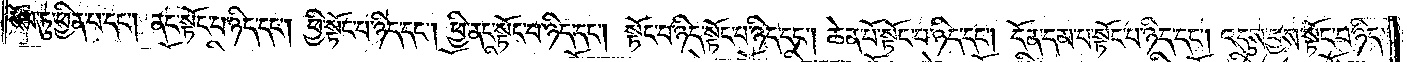རོལ་ཏུ་ཕྱིན་པ་དང༌། ནང་སྟོང་པ་ཉིད་དང༌། ཕྱི་སྟོང་པ་ཉིད་དང༌། ཕྱི་ནང་སྟོང་པ་ཉིད་དང༌། སྟོང་པ་ཉིད་སྟོང་པ་ཉིད་དང༌། ཆེན་པོ་སྟོང་པ་ཉིད་དང༌། དོན་དམ་པ་སྟོང་པ་ཉིད་དང༌། འདུས་བྱས་སྟོང་པ་ཉིད་
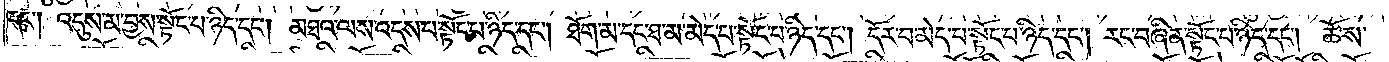དང༌། འདུས་མ་བྱས་སྟོང་པ་ཉིད་དང༌། མཐའ་ལས་འདས་པ་སྟོང་པ་ཉིད་དང༌། ཐོག་མ་དང་ཐ་མ་མེད་པ་སྟོང་པ་ཉིད་དང༌། དོར་བ་མེད་པ་སྟོང་པ་ཉིད་དང༌། རང་བཞིན་སྟོང་པ་ཉིད་དང༌། ཆོས་
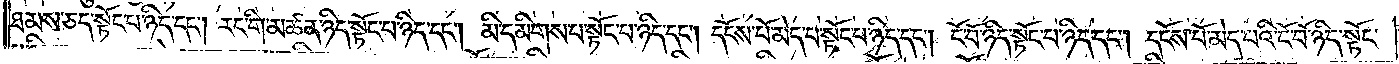ཐམས་ཅད་སྟོང་པ་ཉིད་དང༌། རང་གི་མཚན་ཉིད་སྟོང་པ་ཉིད་དང༌། མི་དམིགས་པ་སྟོང་པ་ཉིད་དང༌། དངོས་པོ་མེད་པ་སྟོང་པ་ཉིད་དང༌། ངོ་བོ་ཉིད་སྟོང་པ་ཉིད་དང༌། དངོས་པོ་མེད་པའི་ངོ་བོ་ཉིད་སྟོང་
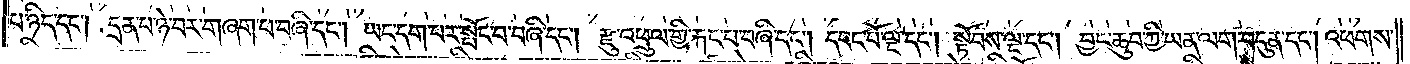པ་ཉིད་དང༌། དྲན་པ་ཉེ་བར་གཞག་པ་བཞི་དང༌། ཡང་དག་པར་སྤོང་བ་བཞི་དང༌། རྫུ་འཕྲུལ་གྱི་རྐང་པ་བཞི་དང༌། དབང་པོ་ལྔ་དང༌། སྟོབས་ལྔ་དང༌། བྱང་ཆུབ་ཀྱི་ཡན་ལག་བདུན་དང༌། འཕགས་
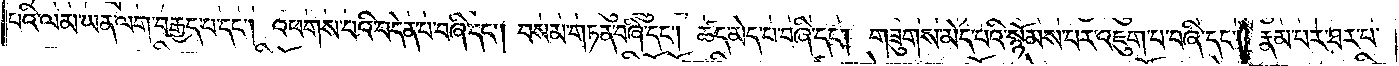པའི་ལམ་ཡན་ལག་བརྒྱད་པ་དང༌། འཕགས་པའི་བདེན་པ་བཞི་དང༌། བསམ་གཏན་བཞི་དང༌། ཚད་མེད་པ་བཞི་དང༌། གཟུགས་མེད་པའི་སྙོམས་པར་འཇུག་པ་བཞི་དང༌། རྣམ་པར་ཐར་པ་
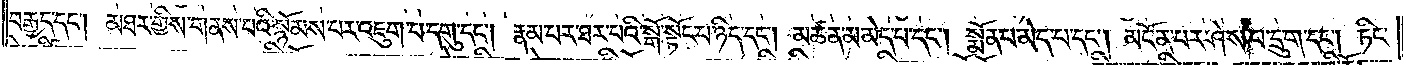བརྒྱད་དང༌། མཐར་གྱིས་གནས་པའི་སྙོམས་པར་འཇུག་པ་དགུ་དང༌། རྣམ་པར་ཐར་པའི་སྒོ་སྟོང་པ་ཉིད་དང༌། མཚན་མ་མེད་པ་དང༌། སྨོན་པ་མེད་པ་དང༌། མངོན་པར་ཤེས་པ་དྲུག་དང༌། ཏིང་
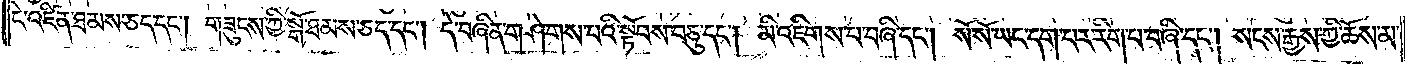ངེ་འཛིན་ཐམས་ཅད་དང༌། གཟུངས་ཀྱི་སྒོ་ཐམས་ཅད་དང༌། དེ་བཞིན་གཤེགས་པའི་སྟོབས་བཅུ་དང༌། མི་འཇིགས་པ་བཞི་དང༌། སོ་སོ་ཡང་དག་པར་རིག་པ་བཞི་དང༌། སངས་རྒྱས་ཀྱི་ཆོས་མ་
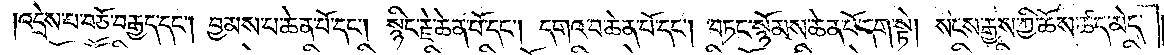འདྲེས་པ་བཅོ་བརྒྱད་དང༌། བྱམས་པ་ཆེན་པོ་དང༌། སྙིང་རྗེ་ཆེན་པོ་དང༌། དགའ་བ་ཆེན་པོ་དང༌། བཏང་སྙོམས་ཆེན་པོ་དག་སྟེ། སངས་རྒྱས་ཀྱི་ཆོས་ཚད་མེད་
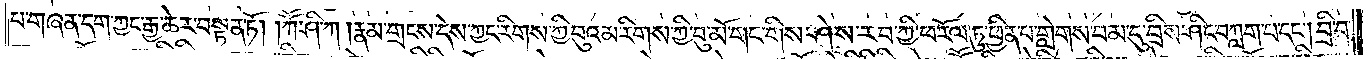པ་གཞན་དག་ཀྱང་རྒྱ་ཆེར་བསྟན་ཏོ། །ཀཽ་ཤི་ཀ །རྣམ་གྲངས་དེས་ཀྱང་རིགས་ཀྱི་བུའམ་རིགས་ཀྱི་བུ་མོ་གང་གིས་ཤེས་རབ་ཀྱི་ཕ་རོལ་ཏུ་ཕྱིན་པ་གླེགས་བམ་དུ་བྲིས་ཤིང་བཀླག་པ་དང༌། བྲི་བ་
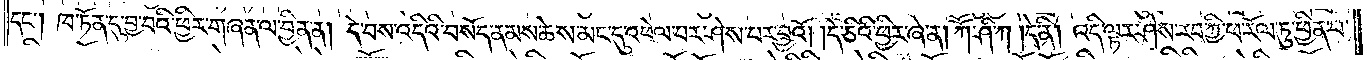དང༌། ཁ་ཏོན་དུ་བྱ་བའི་ཕྱིར་གཞན་ལ་བྱིན་ན། དེ་བས་འདིའི་བསོད་ནམས་ཆེས་མང་དུ་འཕེལ་བར་ཤེས་པར་བྱའོ། །དེ་ཅིའི་ཕྱིར་ཞེ་ན། ཀཽ་ཤི་ཀ །དེ་ནི། འདི་ལྟར་ཤེས་རབ་ཀྱི་ཕ་རོལ་ཏུ་ཕྱིན་པ་
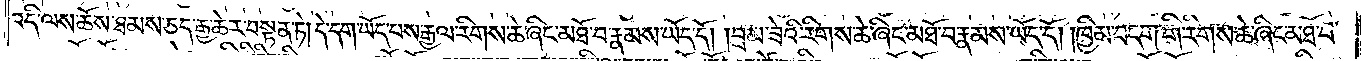འདི་ལས་ཆོས་ཐམས་ཅད་རྒྱ་ཆེར་བསྟན་ཏེ། དེ་དག་ཡོད་པས་རྒྱལ་རིགས་ཆེ་ཞིང་མཐོ་བ་རྣམས་ཡོད་དོ། །བྲམ་ཟེའི་རིགས་ཆེ་ཞིང་མཐོ་བ་རྣམས་ཡོད་དོ། །ཁྱིམ་བདག་གི་རིགས་ཆེ་ཞིང་མཐོ་བ་
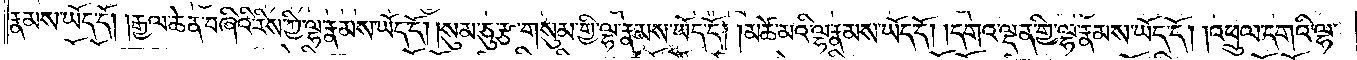རྣམས་ཡོད་དོ། །རྒྱལ་ཆེན་བཞིའི་རིས་ཀྱི་ལྷ་རྣམས་ཡོད་དོ། །སུམ་ཅུ་རྩ་གསུམ་གྱི་ལྷ་རྣམས་ཡོད་དོ། །མཚེ་མའི་ལྷ་རྣམས་ཡོད་དོ། །དགའ་ལྡན་གྱི་ལྷ་རྣམས་ཡོད་དོ། །འཕྲུལ་དགའི་ལྷ་
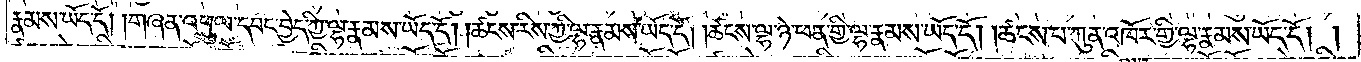རྣམས་ཡོད་དོ། །གཞན་འཕྲུལ་དབང་བྱེད་ཀྱི་ལྷ་རྣམས་ཡོད་དོ། །ཚངས་རིས་ཀྱི་ལྷ་རྣམས་ཡོད་དོ། །ཚངས་ལྷ་ཉེ་ཕན་གྱི་ལྷ་རྣམས་ཡོད་དོ། །ཚངས་པ་ཀུན་འཁོར་གྱི་ལྷ་རྣམས་ཡོད་དོ། །
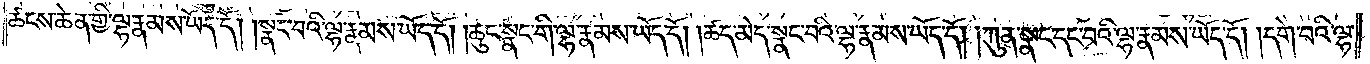ཚངས་ཆེན་གྱི་ལྷ་རྣམས་ཡོད་དོ། །སྣང་བའི་ལྷ་རྣམས་ཡོད་དོ། །ཆུང་སྣང་གི་ལྷ་རྣམས་ཡོད་དོ། །ཚད་མེད་སྣང་བའི་ལྷ་རྣམས་ཡོད་དོ། །ཀུན་སྣང་དང་བའི་ལྷ་རྣམས་ཡོད་དོ། །དགེ་བའི་ལྷ་
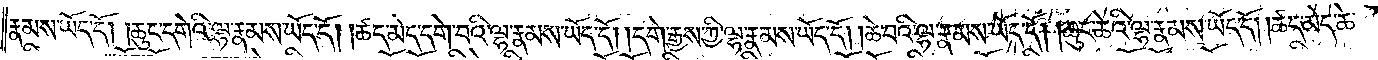རྣམས་ཡོད་དོ། །ཆུང་དགེའི་ལྷ་རྣམས་ཡོད་དོ། །ཚད་མེད་དགེ་བའི་ལྷ་རྣམས་ཡོད་དོ། །དགེ་རྒྱས་ཀྱི་ལྷ་རྣམས་ཡོད་དོ། །ཆེ་བའི་ལྷ་རྣམས་ཡོད་དོ། །ཆུང་ཆེའི་ལྷ་རྣམས་ཡོད་དོ། །ཚད་མེད་ཆེ་
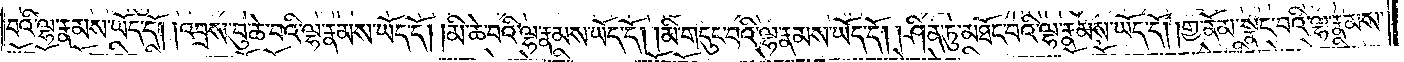བའི་ལྷ་རྣམས་ཡོད་དོ། །འབྲས་བུ་ཆེ་བའི་ལྷ་རྣམས་ཡོད་དོ། །མི་ཆེ་བའི་ལྷ་རྣམས་ཡོད་དོ། །མི་གདུང་བའི་ལྷ་རྣམས་ཡོད་དོ། །ཤིན་ཏུ་མཐོང་བའི་ལྷ་རྣམས་ཡོད་དོ། །གྱ་ནོམ་སྣང་བའི་ལྷ་རྣམས་
